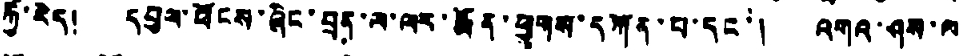ཀྱི་རེད། དབུལ་ཕོངས་ཞིང་བྲན་ལ་ལར་རྨོན་ཕྱུགས་དཀོན་པ་དང་། འགའ་ཤས་ལ
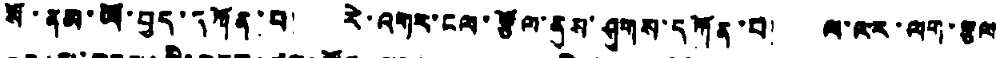སོ་ནམ་ཡོ་བྱད་དཀོན་པ། རེ་འགར་ངལ་རྩོལ་ནུས་ཤུགས་དཀོན་པ། ལ་ལར་ལག་རྩལ
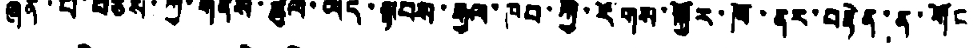ཞན་པ་བཅས་ཀྱི་གནས་ཚུལ་ཡོད་སྟབས་རྒྱལ་ཁབ་ཀྱི་རོགས་སྐྱོར་ཁོ་ནར་བརྟེན་ན་གོང
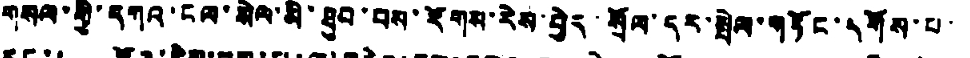གསལ་གྱི་དཀའ་ངལ་སེལ་མི་ཐུབ་པས་རོགས་རེས་བྱེད་སྲོལ་དར་སྤེལ་གཏོང་དགོས་པ་
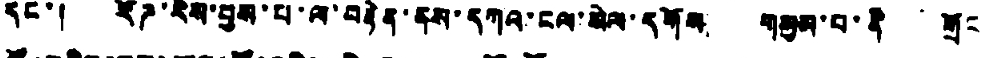དང་། རོཌ་རེས་བྱས་པ་ལ་བརྟེན་ནས་དཀའ་ངལ་སེལ་དགོས གསུམ་པ་ནི གྲོང་
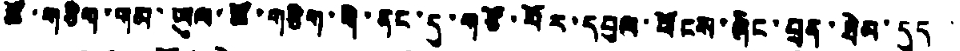ཚོ་གཅིག་གམ་ཡུལ་ཚོ་གཅིག་གི་ནང་དུ་གཙོ་བོར་དབུལ་ཕོངས་ཞིང་བྲན་ཐེམ་དུད་
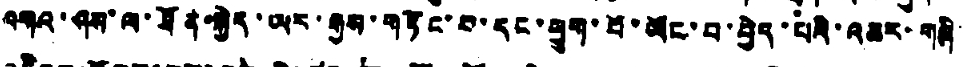འགའ་ཤས་ལ་ཐོན་སྐྱེད་ཡར་རྒྱས་གཏོང་བ་དང་ཕྱུག་པོ་ཡོང་བ་བྱེད་པའི་འཆར་གཞི་
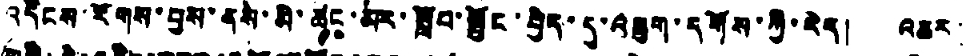འདིངས་རོགས་བྱས་ནས་མི་ཚང་མར་སློབ་སྦྱོང་བྱེད་དུ་འཇུག་དགོས་ཀྱི་རེད། འཆར་
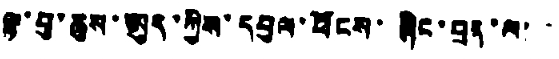ལྷ་བུ་ཆུས་ཨུད་ཀྱིས་དབུལ་ཕོངས་ཞིང་བྲན་ལ་་་་
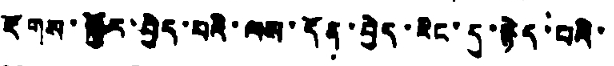རོགས་སྐྱོར་བྱེད་པའི་ལས་དོན་བྱེད་རིང་དུ་རྙེད་པའི་
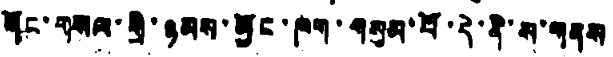གོང་གསལ་གི་ཉམས་མྱོང་ཁག་གསུམ་པོ་དེ་ནི་ས་གནས
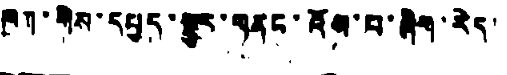ཁག་གིས་དཔྱད་སྡུར་གནང་འོས་པ་ཞིག་རེད།
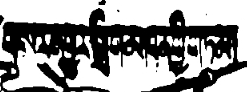གསར་འགྱུར་སྒྲིག་མཁན་གྱི་གཏམ།
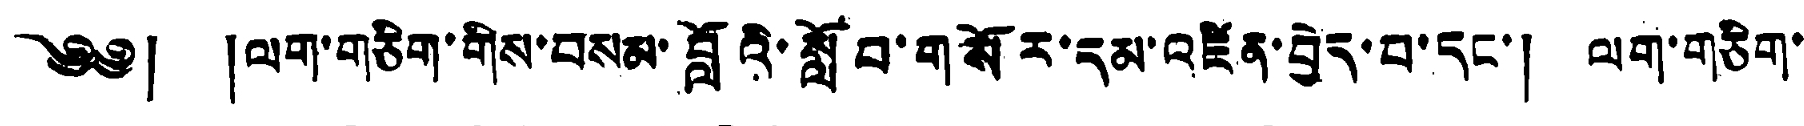༄༅། །ལག་གཅིག་གིས་བསམ་བློའི་སློབ་གསོར་དམ་འཛིན་བྱེད་པ་དང་། ལག་གཅིག་
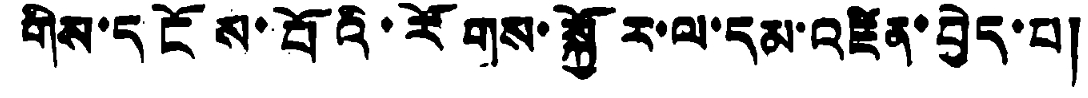གིས་དངོས་བོའི་རོགས་སྐྱོར་ལ་དམ་འཛིན་བྱེད་པ།
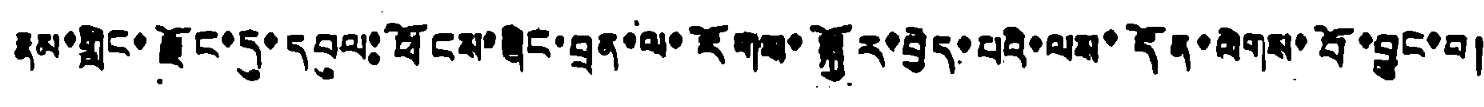རྣམ་གླིང་རྫོང་དུ་དབུལ་ཕོངས་ཞིང་བྲན་ལ་རོགས་སྐྱོར་བྱེད་པའི་ལས་དོན་ལེགས་པོ་བྱུང་བ།
